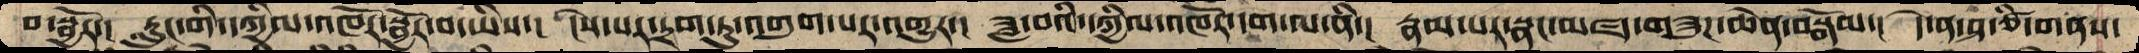བ་སྦྱོར་།  རླུང་གི་དཀྱིལ་འཁོར་སྦྱོར་བ་ཡིས་།  ངེས་པར་དྲག་ཏུ་འགུག་པར་འགྱུར་།  ཟླ་བའི་དཀྱིལ་འཁོར་དག་ལ་ནི་།  རྣམ་པར་སྣང་མཛད་གཟུགས་ཆེན་བསྒོམ་།  དེ་ན་ཤ་ཙི་གནས་
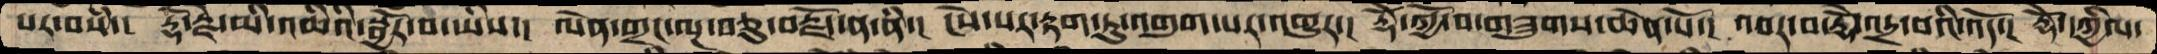པར་བསཾ་། རྡོ་རྗེ་མི་འཆིའི་སྦྱོར་བ་ཡིས་།  ལེན་གྲང་ལྔ་བཅུ་བརྗོད་ན་ནི་། ངེས་པར་རྟག་ཏུ་འགུག་པར་འགྱུར་། རྡོེ་ཀྱོ་བ་གཟུགས་ཆེན་པོ་། འབར་བ་རྡོེ་འདྲ་བའི་འདོ་། རྡོེ་དཀྱིལ་
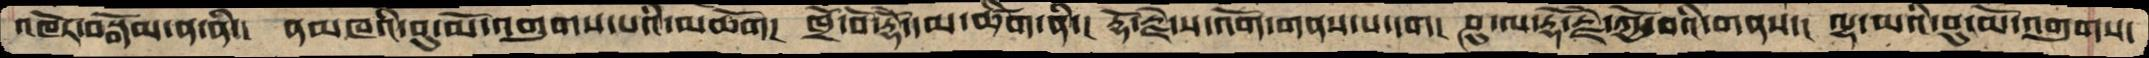འཁོར་བསྒོམ་ན་ནི་་  ནམཁའི་བུ་མོ་འགུགས་པའི་མཆོག། ཁྲོ་བོ་རྡོེ་དམ་ཚིག་ནི་། རྡོ་རྗེ་ས་འོག་གནས་པ་དག། ཤུ་ལ་རྡོ་རྗེ་ཀྱོ་བའི་གནས་། ལྷ་ཡའི་བུ་མོ་འགུགས་
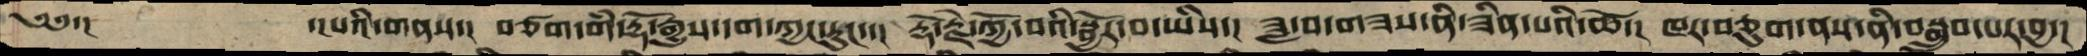༄༅་།          ་།པའི་གནས་།  བཙག་གཾ་རྡོ་རྒྱུས་དག་ཀྱང་རུང་་།  རྡོ་རྗེ་ཀྱྱོ་བའི་སྦྱོར་བ་ཡིས་། ཟླ་བ་གཟས་ནི་ཟིན་པའི་ཚེ་། ཁར་བཅུག་ནས་ནི་བསྒྲུབ་པར་བྱ་།
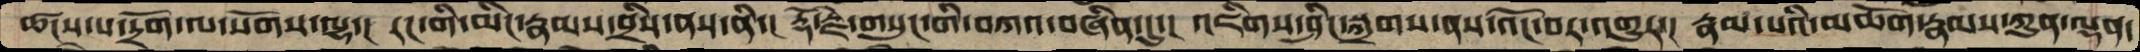ཚངས་པ་དྲོག་ལ་སོགས་ལྷ་། རང་གི་མིང་རྣམས་བྲིས་ནས་ནི་། རྡོ་རྗེ་གསུང་གི་བཀའ་བཞིན་དུ་། འཇིགས་ཤིང་སྐྲགས་ནས་འོང་བར་འགྱུར་། རྣམ་པའི་མཆོག་རྣམས་ཀུན་ལྡན་
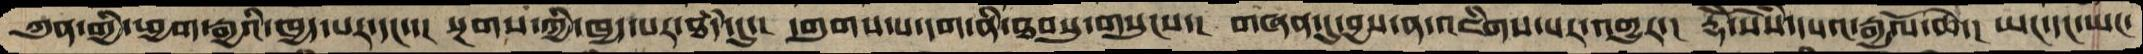ཀུན་གྱི་ཕྱག་རྒྱའི་ཁྱད་པར་དང་་།  སྔགས་ཀྱི་ཁྱད་པར་ཐཾད་དུ་།  དགུགས་པ་དག་ནི་ཐབསསུ་གསུངས་།  གཞན་དུ་བྱས་ན་འཇིགས་པར་འགྱུར་།  རྡོེ་སེཾས་དཔའ་རྒྱལོ་ཆེ་།  ཡང་དང་ཡང་
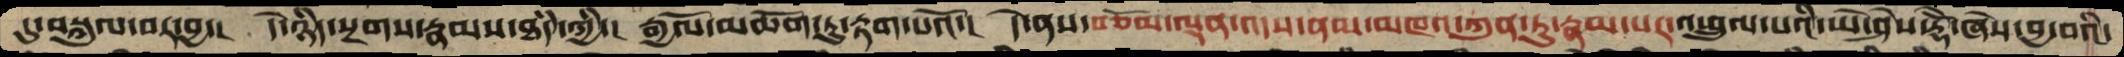དུ་བསྐུལ་བར་བྱ་།  དེ་ཉིད་སྔགས་རྣམས་ཐཾད་ཀྱི་།  རྒྱལོ་མཆོག་ཏུ་རྟག་པའོ་།  དེ་ནས་བཅོམ་ལྡན་འདས་ནམ་མཁའ་ཀུན་ཏུ་རྣམ་པར་འཕྲུལ་པའི་ཡེ་ཤེས་རྡོེ་ཞེས་བྱ་བའི་
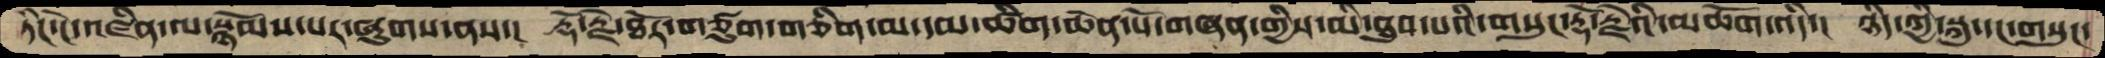ཏིང་ངེ་འཛིན་ལ་སྙོམས་པར་ཞུགས་ནས་།  རྡོ་རྗེ་ཐོར་གཙུག་གཅིག་ལ་དམ་ཚིག་ཆེན་པོ་གཞན་གྱིས་མི་ཐུབ་པའི་གསུང་རྡོ་རྗེའི་མཆོག་འདི་།  ཉིད་ཀྱི་སྐུ་དང་གསུང་
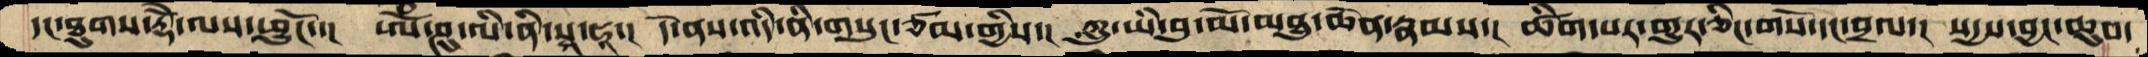དང་ཐུགས་རྡོེ་ལས་ཕྱུངོ་་།  ཨོཾ་ཤུ་ལི་ནི་སྭཱ་ཧཱ་།  དེ་ནས་འདི་ནི་གསུང་ཙམ་གྱིས་།  ཀླུ་ཡི་བུ་མོ་མཐུ་ཆེན་རྣམས་།  ཚིག་པར་གྱུར་ཅིང་གསོ་དང་བྲལ་།  སདྱས་བྱང་ཆུབ་
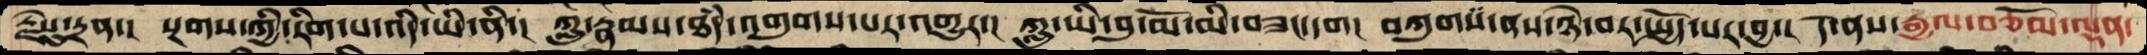རྗེསུ་དྲན་།  སྔགས་ཀྱི་རིག་པ་འདི་ཡི་ནི་།  ཀླུ་རྣམས་ཐཾད་འགུགས་པར་འགྱུར་།  ཀླུ་ཡི་བུ་མོ་མི་བཟང་དག།  བཀུགས་ནས་ཉེ་བར་སྤྱོད་པར་བྱ་།  དེ་ནས་རྒྱལ་བཅོམ་ལྡན་
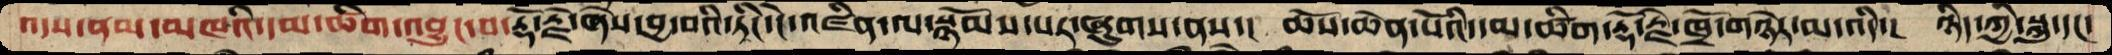འདས་ནམ་མཁའི་དམ་ཚིག་འབྱུང་བ་རྡོ་རྗེ་ཞེས་བྱ་བའི་ཏིང་ངེ་འཛིན་ལ་སྙོམས་པར་ཞུགས་ནས་།  ཆོས་ཆེན་པོའི་དམ་ཚིག་རྡོ་རྗེ་ཁྲོ་གཉེར་མ་འདི་།  ཉིད་ཀྱི་སྐུ་དང་
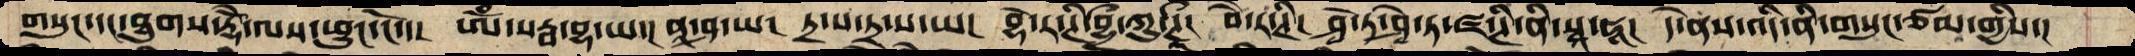གསུང་དང་ཐུགས་རྡོེ་ལས་ཕྱུང་ངོ་་།  ཨོཾ་སརྦ་བྷ་ཡ།  ནཱ་ཤ་ཡ་།  ཏྲ་ས་ཏྲ་ས་ཡ།  བྷེ་ར་ཊི་བྷྀ་ཀུ་ཊི།  བཻ་ར་ཊི།  ཤྭེ་ཏ་ཤྭེ་ཏ་ཛ་ཊི་ནི་སྭཱ་ཧཱ།  དེ་ནས་འདི་ནི་གསུང་ཙམ་གྱིས་།
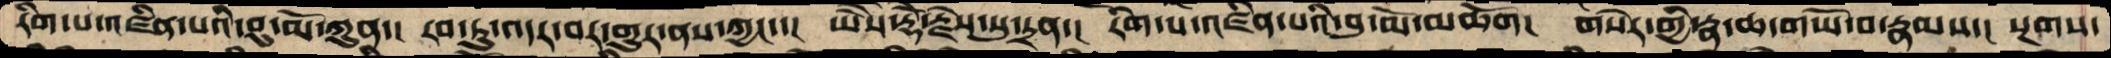རིག་པ་འཛིན་པའི་བུ་མོ་ཀུན་།  རབ་ཏུ་འདར་བར་གྱུར་ནས་ཀྱང་་།  ཡཻས་རྡོེ་རྗེས་སུ་དྲན་།  རིག་པ་འཛིན་པའི་བུ་མོ་མཆོག།  གསེར་གྱི་རྣ་ཆ་གཡོ་བ་རྣམས་།  སྔགས་
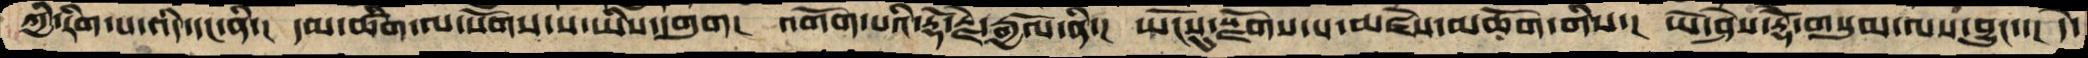ཀྱི་རིག་པ་འདི་དང་ནི་།  དམ་ཚིག་ལ་སོགས་ས་ཡིས་དགུག།  འགོག་པའི་རྡོ་རྗེ་རྒྱལོ་ནི་།  ཡོངསུ་སྫོགས་པ་མཛེས་མཆོག་གིས་།  ཡེ་ཤེས་རྡོེ་གསུམ་ལས་བྱུང་་།  དེ་
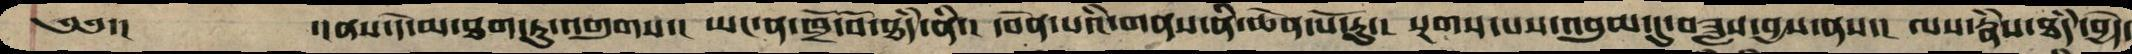༄༅་།   ་།ནས་དེ་མ་ཐག་ཏུ་འགུགས་།  ཡང་ན་ཁྲོ་བོ་ཐཾད་ནི་།  དབེན་པའི་གནས་ནི་ཆེན་པོ་རུ་།  སྔགས་པས་འབུམ་དུ་བཟླས་བྱས་ནས་།  ལས་རྣཾས་ཐཾད་བྱེད་
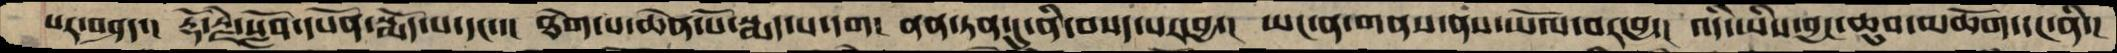པར་བཤད་།  རྡོ་རྗེ་སློབ་དཔོན་སྨོད་པ་དང་་།  ཐེག་པ་ཆེན་པོ་སྨད་པ་དག།  ནན་ཏན་དུ་ནི་བསད་པར་བྱ་།  ཡང་ན་གནས་ནས་ཡོལ་བར་བྱ་།  འདི་ཡིས་བྱང་ཆུབ་མཆོག་དང་ནི་།
